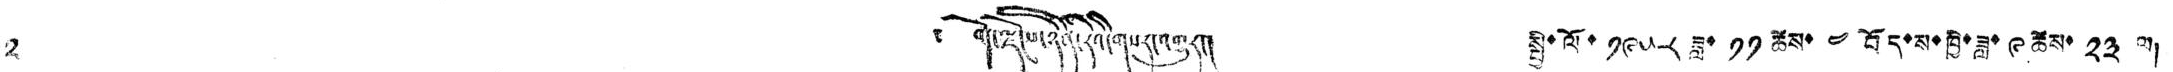༢ ༄ བོད་ལྗོངས་ཉིན་རེའི་གསར་འགྱུར། སྤྱི་ལོ་ ༡༩༥༨ ཟླ་ ༡༡ ཚེས་ ༤ བོད་ས་ཁྱི་ཟླ་ ༩ ཚེས་ ༢༣ ལ།
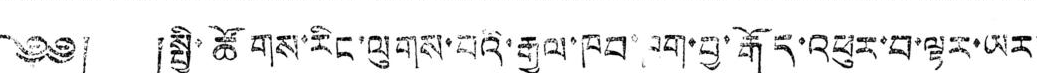༄༅། །སྤྱི་ཚོགས་རིང་ལུགས་པའི་རྒྱལ་ཁབ་ཁག་བྱ་རྒོད་འཕུར་བ་ལྟར་ཡར་
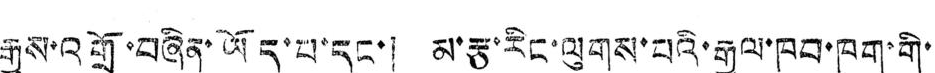རྒྱས་འགྲོ་བཞིན་ཡོད་པ་དང་། མ་རྩ་རིང་ལུགས་པའི་རྒྱལ་ཁབ་ཁག་གི་
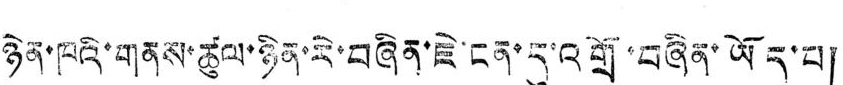ཉེན་ཁའི་གནས་ཚུལ་ཉིན་རེ་བཞིན་ཇེ་ངན་དུ་འགྲོ་བཞིན་ཡོད་པ།
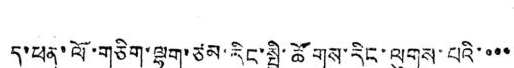ད་ཕན་ལོ་གཅིག་ལྷག་ཙམ་རིང་སྤྱི་ཚོགས་རིང་ལུགས་པའི་་་་
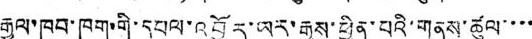རྒྱལ་ཁབ་ཁག་གི་དཔལ་འབྱོར་ཡར་རྒྱས་ཕྱིན་པའི་གནས་ཚུལ་་་་
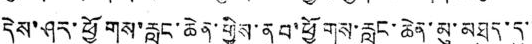དེས་ཤར་ཕྱོགས་རླུང་ཆེན་གྱིས་ནུབ་ཕྱོགས་རླུང་ཆེན་མུ་མཐུད་དུ་་
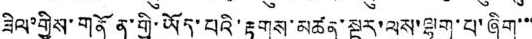ཟིན་གྱིས་གནོན་གྱི་ཡོད་པའི་རྟགས་མཚན་སྔར་ལས་ལྷག་པ་ཞིག་་་
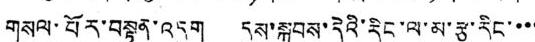གསལ་པོར་བསྟན་འདུག དུས་སྐབས་དེའི་རིང་ལ་མ་རྩ་རིང་་་་
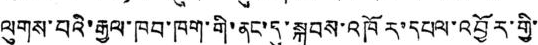ལུགས་པའི་རྒྱལ་ཁབ་ཁག་གི་ནང་དུ་སྐབས་འཁོར་དཔལ་འབྱོར་གྱི་
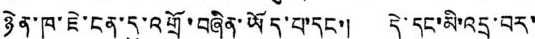ཉེན་ཁ་ཇེ་ངན་དུ་འགྲོ་བཞིན་ཡོད་པ་དང་། དེ་དང་མི་འདྲ་བར་
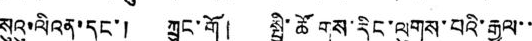སུའུ་ལིའན་དང་། ཀྲུང་གོ། སྤྱི་ཚོགས་རིང་ལུགས་པའི་རྒྱལ་་
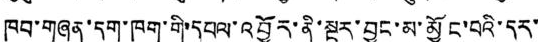ཁབ་གཞན་དག་ཁག་གི་དཔལ་འབྱོར་ནི་སྔར་བྱུང་མ་མྱོང་བའི་དར་
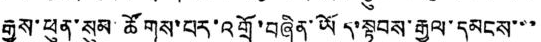རྒྱས་ཕུན་སུམ་ཚོགས་པར་འགྲོ་བཞིན་ཡོད་སྟབས་རྒྱལ་དམངས་་་
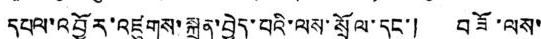དཔལ་འབྱོར་འཛུགས་སྐྲུན་བྱེད་པའི་ལས་སྲོལ་དང་། བཟོ་ལས་
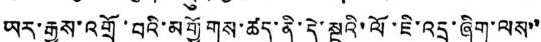ཡར་རྒྱས་འགྲོ་བའི་མགྱོགས་ཚད་ནི་དེ་སྔའི་ལོ་ཇི་འདྲ་ཞིག་ལས་་
